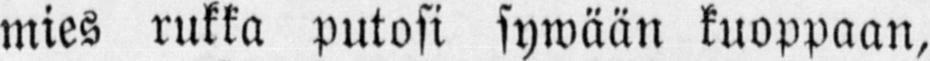mies rukka putosi sywään kuoppaan,
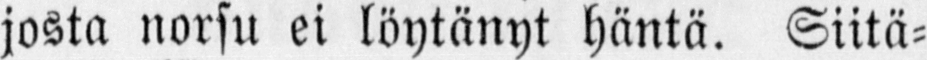josta norsu ei löytänyt häntä. Siitä-
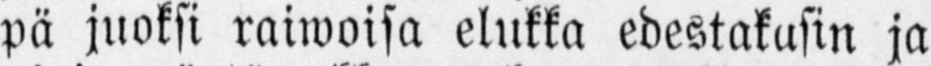pä juoksi raiwoisa elukka edestakasin ja
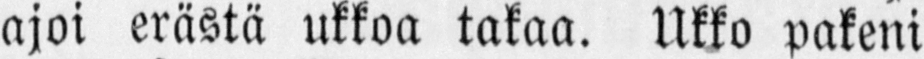ajoi erästä ukkoa takaa. Ukko pakeni
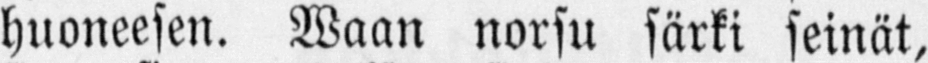huoueesen. Waan norsu särki seinät,
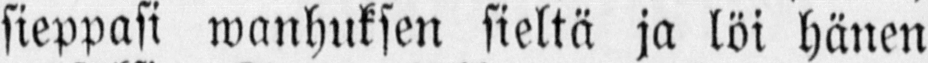sieppasi wanhuksen sieltä ja löi hänen
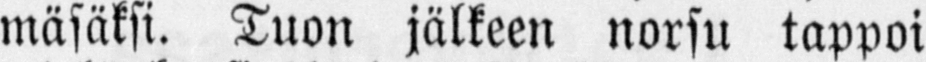mäsäksi. Tuon jälkeen norsu tappoi
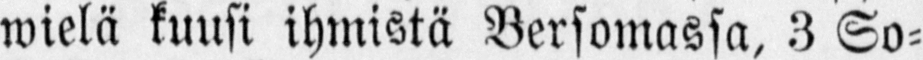wielä kuusi ihmistä Bersomassa, 3 Lo-
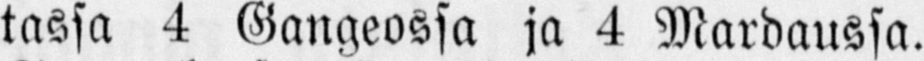tassa 4 Gangeossa ja 4 Mardaussa.
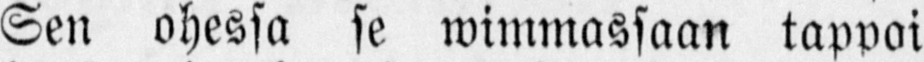Sen ohessa se wimmassaan tappoi
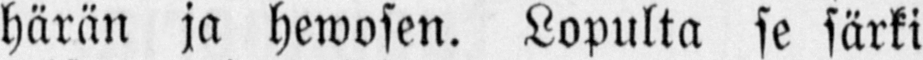härän ja hewosen. Lopulta se särki
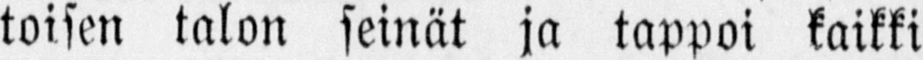toisen talon seinät ja tappoi kaikki
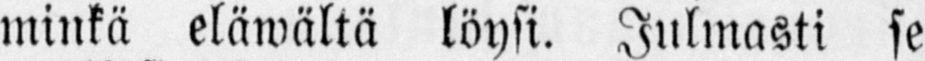minkä eläwältä löysi. Julmasti se
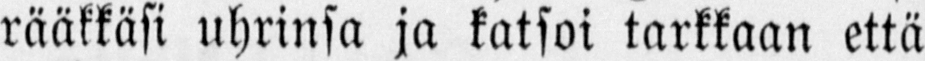rääkkäsi uhrinsa ja katsoi tarkkaan että
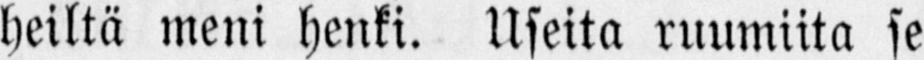heiltä meni henki. Useita ruumiita se
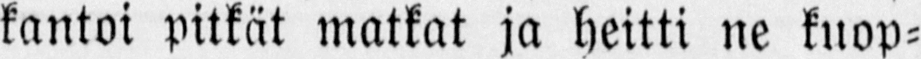kantoi pitkät matkat ja heitti ne kuop-
